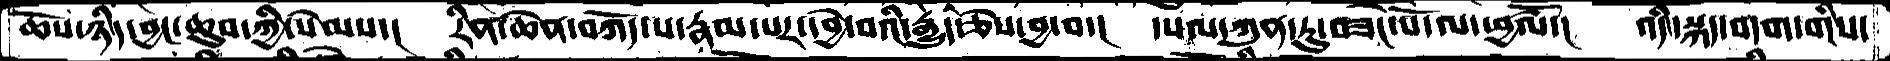ཆོས་ཉིད་བྱང་ཆུབ་ཀྱི་སེམས་།  རིན་ཆེན་བཀོད་པ་རྣམ་པར་དབྱེ་བའི་རྒྱུད་ཅེས་བྱ་བ་།  དཔལ་ཀུན་ཏུ་བཟང་པོ་ལ་ཕྱཚལོ་།  འདི་སྐད་བདག་གིས་
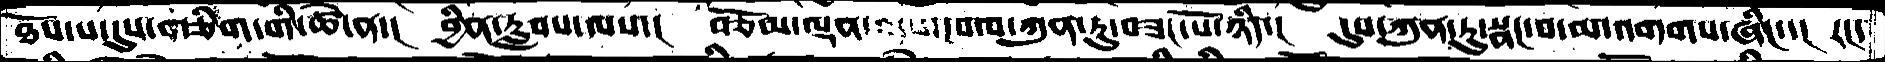ཐོས་པ་དུས་གཅིག་གི་ཚེ་ན་།  བྱིན་རླབས་ལས་།  བཅོམ་ལྡན་འདས་དཔལ་ཀུན་ཏུ་བཟང་པོ་ཉིད་།  དུས་ཀུན་ཏུ་སྣང་བ་མ་འགགས་ཞིང་་།  རང་
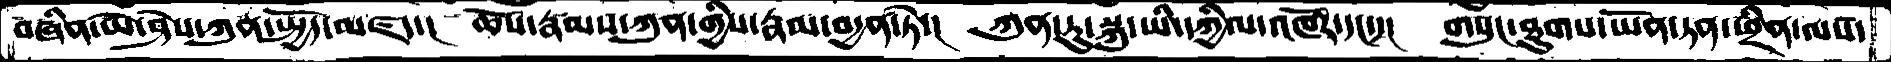བཞིན་ཡེ་ཤེས་ཀུན་སྤྱོད་མཛད་།  ཆོས་རྣམས་ཀུན་གྱིས་རྣམ་བདྱན་་ཏེ་།  ཀུན་ཏུ་སྐུ་ཡི་དཀྱིལ་འཁོར་དང་་།  གསུང་ཐུགས་ཡོན་ཏན་ཕྲིན་ལས་
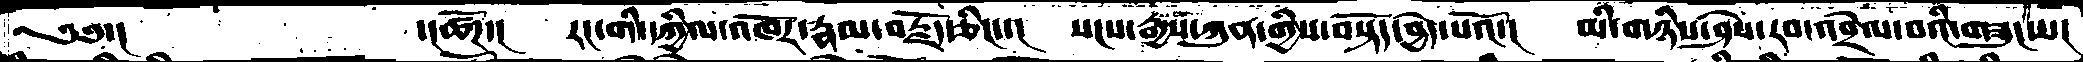༄༅་།        ་།ཚོཌ་།   རང་གི་དཀྱིལ་འཁོར་རྣམ་བརྗོད་ཅིང་་།   སངས་རྒྱས་ཀུན་གྱིས་བསྟོད་བྱེད་པའོ་།  མི་གཉིས་ཤེས་རབ་འབྲེལ་བའི་གཟུངས་།
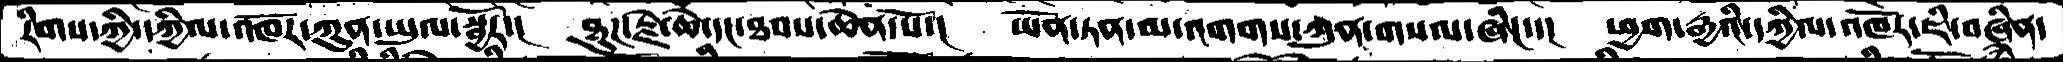རིགས་ཀྱི་དཀྱིལ་འཁོར་ཀུན་ཡུལ་སྦྱོར་།   ཐུཌ་རྗེ་ཆེ་དང་ཐབས་ཆེན་པོ་།  ཡོན་ཏན་མ་འགགས་ཀུན་གསལ་ཞིང་་།   ཕྱག་རྒྱའི་དཀྱིལ་འཁོར་ཇི་བཞིན་
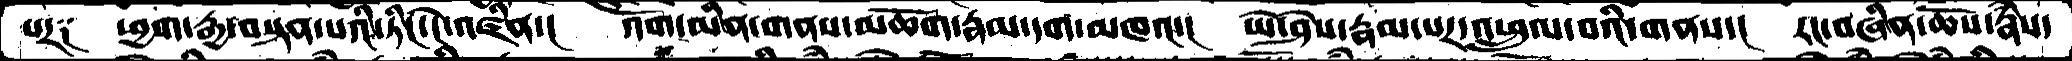པར༑   ཕྱག་རྒྱ་བསྟན་པའི་ཏིང་ངེ་འཛིན་།  འོག་མིན་གནས་མཆོག་རྣམ་དག་མཁའ་།  ཡེ་ཤེས་རྣམ་པར་འཕྲུལ་བའི་གནས་།   རང་བཞིན་ཆོས་རྣཾས་
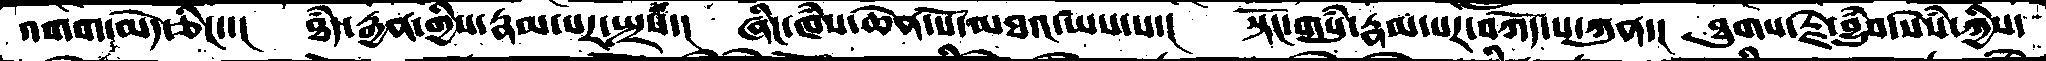འགག་མེད་ཅིང་་།   ཐཾད་རྒྱན་གྱིས་རྣམ་པར་སྤྲས་།   ཞིང་ཁཾས་ཆེན་པོ་མཐའ་ཡས་པ་།  སྟོང་གསུཾ་རྣམ་པར་བཀོད་པ་ཀུན་།  ཐུགས་རྗེ་བྱུཾབ་སེཾས་ཀྱིས་
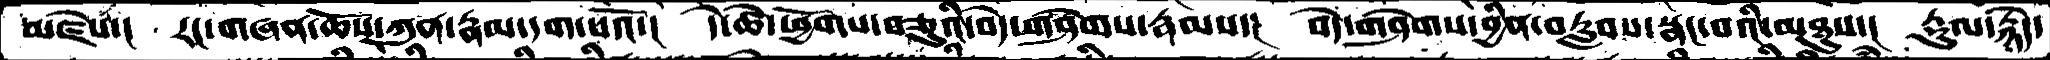མཛེས་།   རང་བཞིན་ཆོས་ཀུན་རྣམ་དག་པའོ་།   དེ་ཚེ་ཕྱོགས་བཅུའི་བདེ་གཤེགས་རྣམས་།   བདེ་གཤེགས་བྱིན་བརླབས་སྣང་བའི་མཐུས་།  རྡུལ་རྙེད་
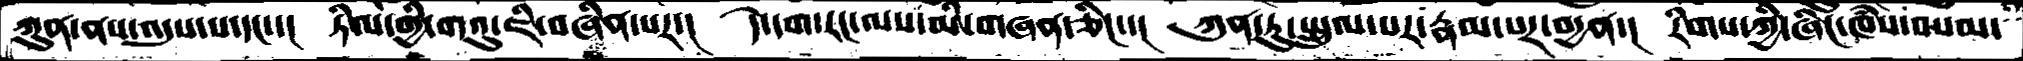ཀུན་ནས་འདུས་པ་དང་་།   ཏིལ་གྱི་གའུ་ཇི་བཞིན་པར་།  དེ་དག་རང་ལས་མི་གཞན་ཅིང་་།  ཀུན་ཏུ་སྤྲུལ་པར་རྣམ་པར་བདྱན་།  རིགས་ཀྱི་ཞིང་ཁཾས་བསམ་
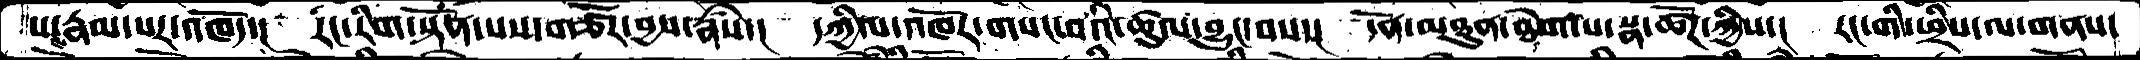པ་རྣམ་པར་འཁོད་།   རང་རིག་སྟོན་པས་གཙོར་བྱས་རྣཾས་།   དཀྱིལ་འཁོར་གསང་བའི་ཚུལ་བྱུང་བས་།  དོན་མཐུན་ཐེག་པ་སྣ་ཚོཌ་ཀྱིས་།  རང་གི་ཕྲིས་ལ་གནས་
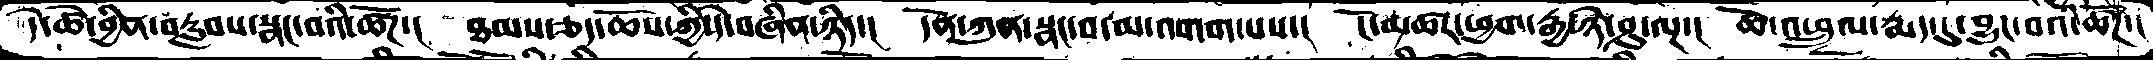དེ་ཚེ་བྱིན་བརླབས་སྣང་བའི་ཚོཌ་།   ཐམས་ཅད་ཆོས་ཀྱི་དེ་བཞིན་ཉིད་།   དོན་ཀུན་སྣང་བ་མ་འགག་པས་།  ངོ་མཚར་ཕྱག་རྒྱ་ཉེ་ཤུ་ལྔ་།  ཆོ་འཕྲུལ་རྨད་དུ་བྱུང་བའི་ཚོཌ་།
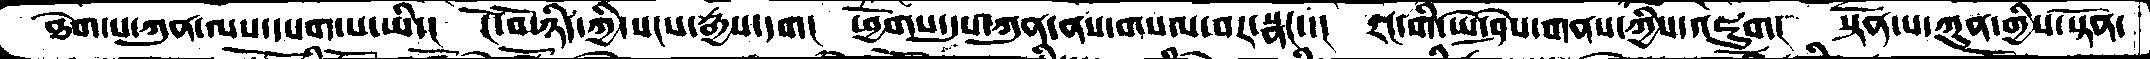ཐེག་པ་ཀུན་ལས་དཔག་པ་ཡི་།   ངོ་བོ་ཉིད་ཀྱི་སངས་རྒྱས་དག།   ཕྱོགས་དུས་ཀུན་ནས་གསལ་བར་སྣང་་།  རང་གི་ཡེ་ཤེས་གནས་ཀྱིས་འཇུག།  སྟོན་པ་ཀུན་གྱིས་སྟོན་
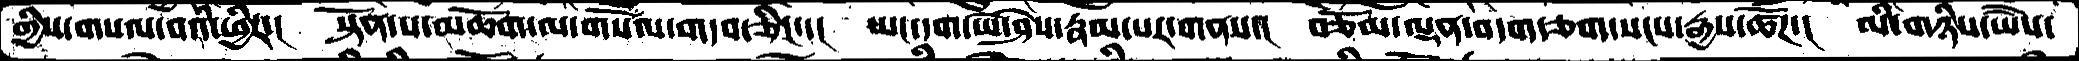གྱིས་གསལ་བའི་ཕྱིར་།   སྟོན་པ་མཆོག་ལ་གསོལ་གདབ་ཅིང་་།   ཡང་དག་ཡེ་ཤེས་རྣམ་པར་གནས་།  བཅོམ་ལྡན་བདག་ཅག་སངས་རྒྱས་ཚོཌ་།  མི་གཉིས་ཡཻས་
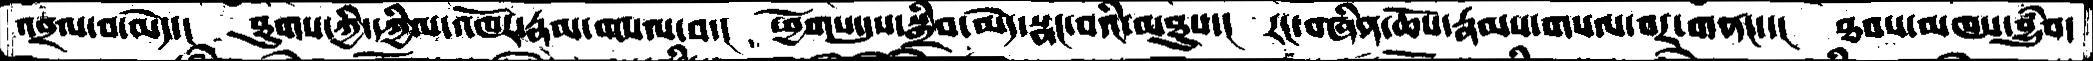འབྲལ་བ་མེད་།   ཐུགས་ཀྱི་དཀྱིལ་འཁོར་རྣམ་གསལ་བ་།   ཕྱོགས་དུས་སྒྲིབ་མེད་སྣང་བའི་མཐུས་།   རང་བཞིན་ཆོས་རྣམས་གསལ་བར་གནང་་།  ཐབས་མཁས་བྱུཾབ་
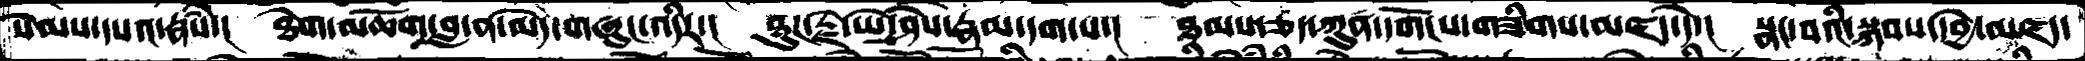སེམས་དཔའ་རྣཾས་།   ཐེག་མཆོག་བླ་ན་མེད་གཞུང་འདིར་།   ཐུགས་རྗེ་ཡེ་ཤེས་རྣམ་དག་པ་།  ཐམས་ཅད་ཀུན་དགོངས་གཟིགས་མཛད་དེ་།  སྣང་བའི་སྐབས་དབྱེ་མཛད་
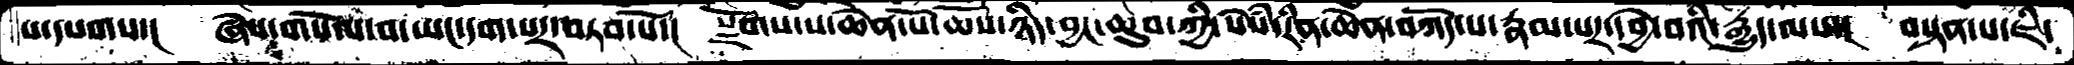པ་དཔགས་།   ཞེས་གསོལ་བ་ཡང་དག་པར་བཏབ་པོ་།  སྫོགས་པ་ཆེན་པོ་ཆོས་ཉིད་བྱང་ཆུབ་ཀྱི་སེཾས་རིན་ཆེན་བཀོད་པ་རྣམ་པར་དབྱེ་བའི་རྒྱུད་ལས་།  བསྟན་པ་ཇི་
